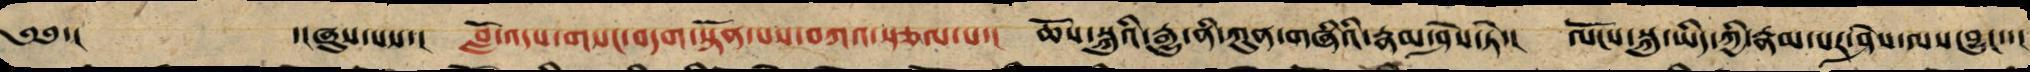༄༅་། ་།ཞུས་པས་། བློ་འདས་གསང་བདག་སྟོན་པས་བཀའ་སྩལ་པ་། ཆོས་སྐུའི་རྒྱུ་ནི་ཀུན་གཞིའི་རྣམ་ཤེས་ཏེ་། ལོངས་སྐུ་ཡིད་ཀྱི་རྣམ་པར་ཤེས་ལས་བྱུང་་།
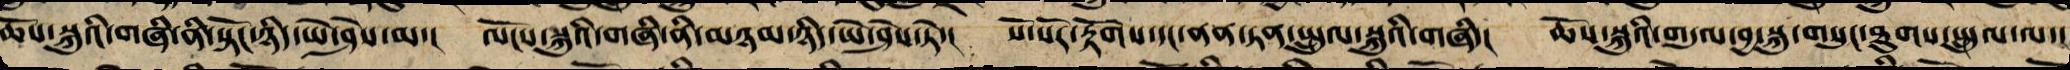ཆོས་སྐུའི་གཞི་ནི་སྟོང་ཉིད་ཡེ་ཤེས་ལ་། ལོངས་སྐུའི་གཞི་ནི་མཉམ་ཉིད་ཡེ་ཤེས་ཏེ་། སོ་སོར་རྟོག་དང་ནན་ཏན་སྤྲུལ་སྐུའི་གཞི་། ཆོས་སྐུའི་གདུལ་བྱ་སྐུ་གསུང་ཐུགས་སྤྲུལ་ལ་།
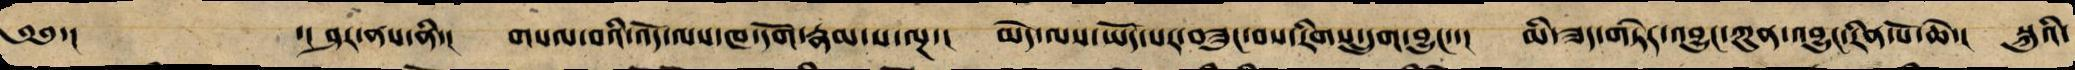༄༅་། ་། ཤར་ནས་ནི་། གསལ་བའི་འོད་ལས་ཁ་དོག་རྣམ་པ་ལྔ་། མེད་ལས་ཡོད་པར་བཟུང་བས་རིགས་དྲུག་བྱུང་་། མི་ཟད་གཏེར་མཛོད་ཀུན་འབྱུང་རིན་པོ་ཆེ་། སྐུའི་
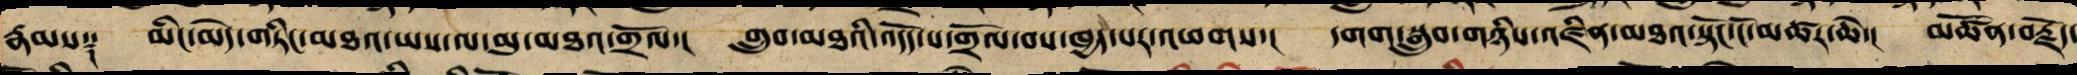རྣམས༑ མིང་མེད་གཏིང་མཐའ་ཡས་ལ་མུ་མཐའ་གྲོལ་། གྲུབ་མཐའི་འདོད་པ་གྲོལ་བས་ཁྱད་པར་འཕགས་། དགག་བསྒྲུབ་གཉིས་འཛིན་མཐའ་སྟོང་ངོ་མཚར་ཆེ་། མཚོན་བརྗོད་
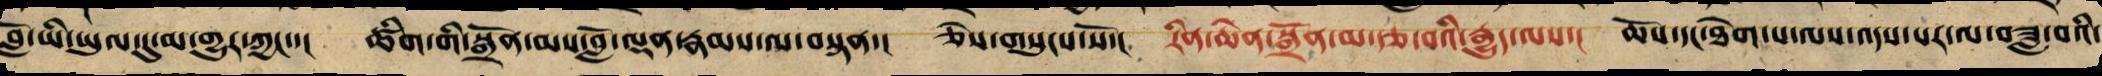བློ་ཡི་ཡུལ་དུ་མ་གྱུར་ཀྱང་་། ཚིག་གི་སྒྲོན་མས་བློ་ལྡན་རྣམས་ལ་བསྟན་། ཅེས་གསུངས་སོ་། རིན་ཆེན་སྒྲོན་མ་རྩ་བའི་རྒྱུད་ལས་། ཆོས་དང་ཐེག་པ་ལས་འདས་པར་ལ་བཟླ་བའི་
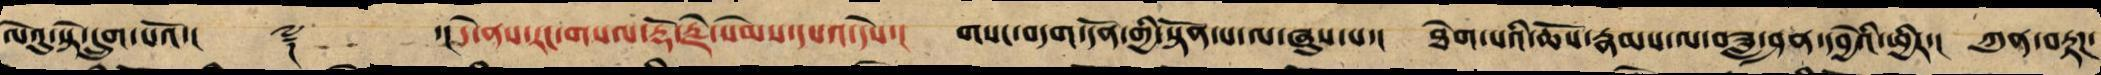ལེའུ་སྟེ་དྲུག་པའོ་།། ༈ ་།། དེ་ནས་རང་གསལ་རྡོ་རྗེ་སེམས་དཔའ་དེས་། གསང་བ་དོན་གྱི་སྟོན་པ་ལ་ཞུས་པ་། ཐེག་པའི་ཆོས་རྣམས་ལ་བཟླ་ཤན་དབྱེའི་ཕྱིར་། ཀུན་བརྟཌ་
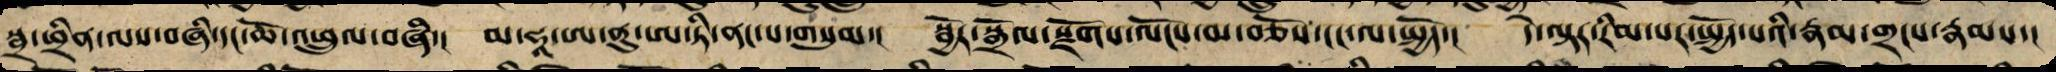སྦྲ་ཕྲིན་ལས་བཞི་དང་ཆོ་འཕྲུལ་བཞི་། མ་ཧཱ་ཨ་ནུ་ཨ་ཏི་ནང་པ་གསུམ་། སྦྱོར་སྒྲོལ་སྫོགས་ལོངས་མ་བཅོས་ངང་ལ་སྤྱོད་། དེ་ལྟར་རིམ་པར་སྤྱོད་པའི་རྣམ་གྲངས་རྣམས་།
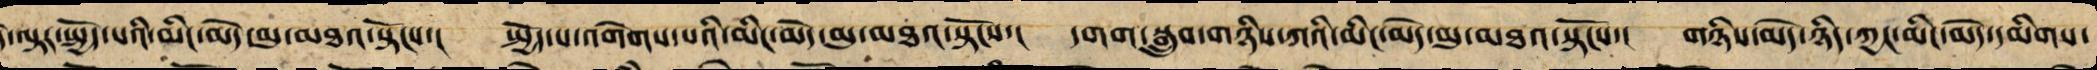དེ་ལྟར་སྤྱོད་པའི་མིང་མེད་མུ་མཐའ་སྟོངས་། སྤྱོད་པ་འགག་པའི་མིང་མེད་མུ་མཐའ་སྟོངས་། དགག་སྒྲུབ་གཉིས་ཀའི་མིང་མེད་མུ་མཐའ་སྟོངས་། གཉིས་མེད་ཉིད་ཀྱང་མིང་མེད་དམིགས་
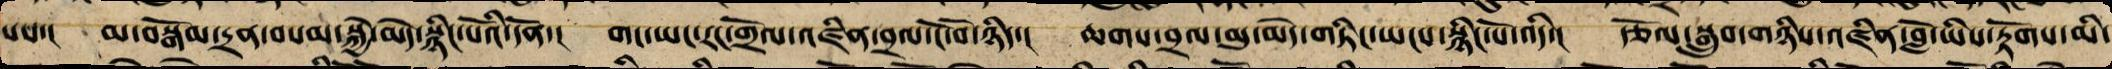པས་། མ་བསྒོམས་དྲན་བསམ་སྐྱེ་མེད་སྙིང་པོའི་དོན་། གང་ཡང་རང་གྲོལ་འཛིན་བྲལ་ངོ་བོ་ཉིད་། ཆགས་བྲལ་མུ་མེད་གཏིང་ཡངས་སྙིང་པོ་འདི་། རྩོལ་བསྒྲུབ་གཉིས་འཛིན་བློ་ཡིས་རྟོགས་མི་
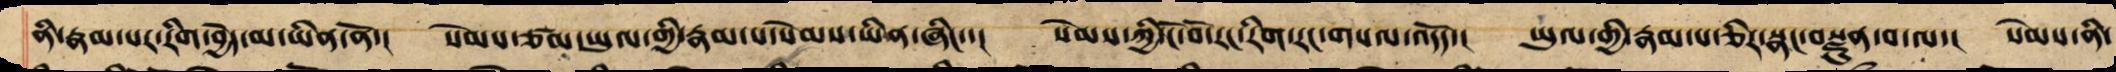ནི་རྣམ་པར་རིག་བྱེད་མ་ཡིན་ནོ་། སེམས་ཙམ་ཡུལ་གྱི་རྣམ་པ་སེམས་ཡིན་ཞིང་་། སེམས་ཀྱི་ངོ་བོ་རང་རིག་རང་གསལ་འདོད་། ཡུལ་གྱི་རྣམ་པ་ཅིར་སྣང་བསྫུན་པ་ལ་། སེམས་ནི་
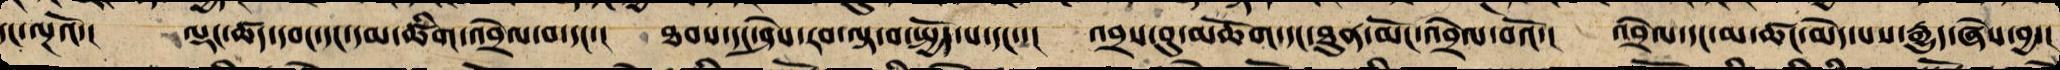དང་ལྔའོ་། ལྡང་ཚད་དབང་དང་དམ་ཚིག་འབྲེལ་པ་དང་་། ཐབས་དང་ཤེས་རབ་ལྟ་བ་སྤྱོད་པ་དང་་། འབྲས་བུ་མཆོག་དང་ཐུན་མོང་འབྲེལ་པའོ་། འབྲེལ་དང་མ་ཚད་མེད་པས་རྒྱུད་ཅེས་བྱ་།
